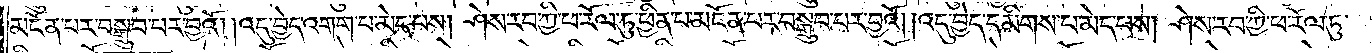མངོན་པར་བསྒྲུབ་པར་བྱའོ། །འདུ་བྱེད་འགག་པ་མེད་པས། ཤེས་རབ་ཀྱི་ཕ་རོལ་ཏུ་ཕྱིན་པ་མངོན་པར་བསྒྲུབ་པར་བྱའོ། །འདུ་བྱེད་དམིགས་པ་མེད་པས། ཤེས་རབ་ཀྱི་ཕ་རོལ་ཏུ་
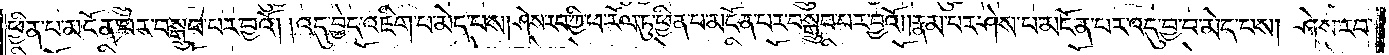ཕྱིན་པ་མངོན་པར་བསྒྲུབ་པར་བྱའོ། །འདུ་བྱེད་འཇིག་པ་མེད་པས། ཤེས་རབ་ཀྱི་ཕ་རོལ་ཏུ་ཕྱིན་པ་མངོན་པར་བསྒྲུབ་པར་བྱའོ། །རྣམ་པར་ཤེས་པ་མངོན་པར་འདུ་བྱ་བ་མེད་པས། ཤེས་རབ་
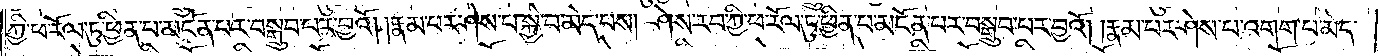ཀྱི་ཕ་རོལ་ཏུ་ཕྱིན་པ་མངོན་པར་བསྒྲུབ་པར་བྱའོ། །རྣམ་པར་ཤེས་པ་སྐྱེ་བ་མེད་པས། ཤེས་རབ་ཀྱི་ཕ་རོལ་ཏུ་ཕྱིན་པ་མངོན་པར་བསྒྲུབ་པར་བྱའོ། །རྣམ་པར་ཤེས་པ་འགག་པ་མེད་
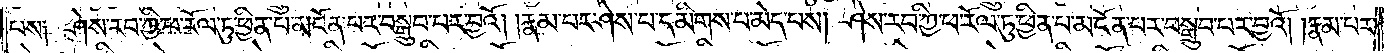པས༑ ཤེས་རབ་ཀྱི་ཕ་རོལ་ཏུ་ཕྱིན་པ་མངོན་པར་བསྒྲུབ་པར་བྱའོ། །རྣམ་པར་ཤེས་པ་དམིགས་པ་མེད་པས། ཤེས་རབ་ཀྱི་ཕ་རོལ་ཏུ་ཕྱིན་པ་མངོན་པར་བསྒྲུབ་པར་བྱའོ། །རྣམ་པར་
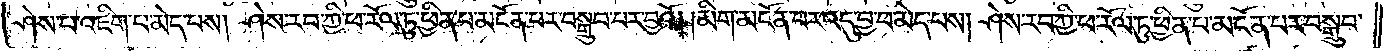ཤེས་པ་འཇིག་པ་མེད་པས། ཤེས་རབ་ཀྱི་ཕ་རོལ་ཏུ་ཕྱིན་པ་མངོན་པར་བསྒྲུབ་པར་བྱའོ། །མིག་མངོན་པར་འདུ་བྱ་བ་མེད་པས། ཤེས་རབ་ཀྱི་ཕ་རོལ་ཏུ་ཕྱིན་པ་མངོན་པར་བསྒྲུབ་
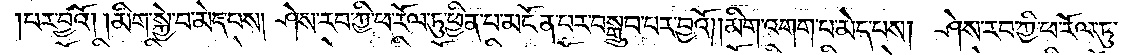པར་བྱའོ། །མིག་སྐྱེ་བ་མེད་པས། ཤེས་རབ་ཀྱི་ཕ་རོལ་ཏུ་ཕྱིན་པ་མངོན་པར་བསྒྲུབ་པར་བྱའོ། །མིག་འགག་པ་མེད་པས། ཤེས་རབ་ཀྱི་ཕ་རོལ་ཏུ་
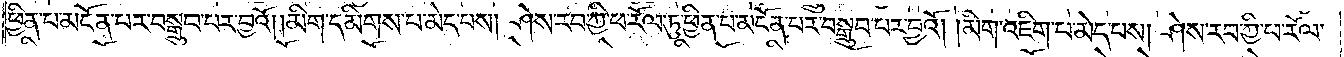ཕྱིན་པ་མངོན་པར་བསྒྲུབ་པར་བྱའོ། །མིག་དམིགས་པ་མེད་པས། ཤེས་རབ་ཀྱི་ཕ་རོལ་ཏུ་ཕྱིན་པ་མངོན་པར་བསྒྲུབ་པར་བྱའོ། །མིག་འཇིག་པ་མེད་པས། ཤེས་རབ་ཀྱི་ཕ་རོལ་
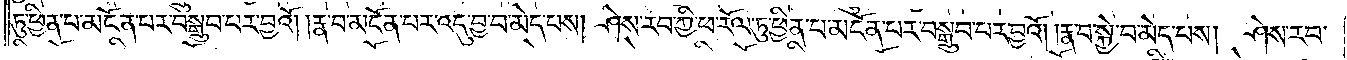ཏུ་ཕྱིན་པ་མངོན་པར་བསྒྲུབ་པར་བྱའོ། །རྣ་བ་མངོན་པར་འདུ་བྱ་བ་མེད་པས། ཤེས་རབ་ཀྱི་ཕ་རོལ་ཏུ་ཕྱིན་པ་མངོན་པར་བསྒྲུབ་པར་བྱའོ། །རྣ་བ་སྐྱེ་བ་མེད་པས། ཤེས་རབ་
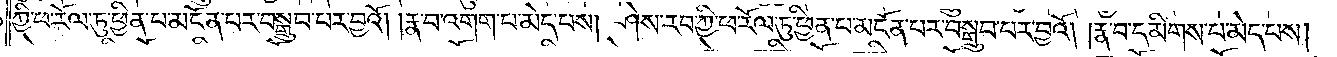ཀྱི་ཕ་རོལ་ཏུ་ཕྱིན་པ་མངོན་པར་བསྒྲུབ་པར་བྱའོ། །རྣ་བ་འགག་པ་མེད་པས། ཤེས་རབ་ཀྱི་ཕ་རོལ་ཏུ་ཕྱིན་པ་མངོན་པར་བསྒྲུབ་པར་བྱའོ། །རྣ་བ་དམིགས་པ་མེད་པས།
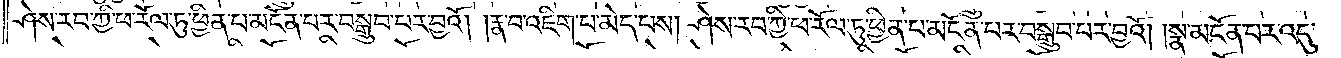ཤེས་རབ་ཀྱི་ཕ་རོལ་ཏུ་ཕྱིན་པ་མངོན་པར་བསྒྲུབ་པར་བྱའོ། །རྣ་བ་འཇིག་པ་མེད་པས། ཤེས་རབ་ཀྱི་ཕ་རོལ་ཏུ་ཕྱིན་པ་མངོན་པར་བསྒྲུབ་པར་བྱའོ། །སྣ་མངོན་པར་འདུ་
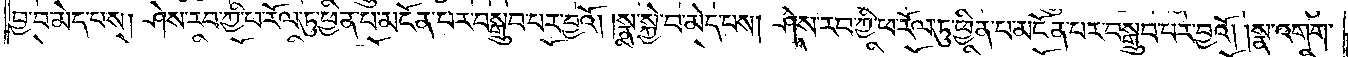བྱ་བ་མེད་པས། ཤེས་རབ་ཀྱི་ཕ་རོལ་ཏུ་ཕྱིན་པ་མངོན་པར་བསྒྲུབ་པར་བྱའོ། །སྣ་སྐྱེ་བ་མེད་པས། ཤེས་རབ་ཀྱི་ཕ་རོལ་ཏུ་ཕྱིན་པ་མངོན་པར་བསྒྲུབ་པར་བྱའོ། །སྣ་འགག་
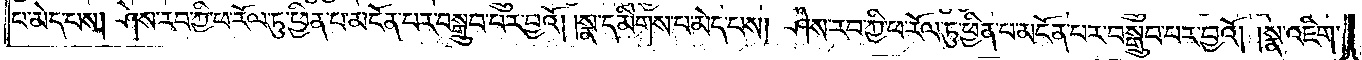པ་མེད་པས། ཤེས་རབ་ཀྱི་ཕ་རོལ་ཏུ་ཕྱིན་པ་མངོན་པར་བསྒྲུབ་པར་བྱའོ། །སྣ་དམིགས་པ་མེད་པས། ཤེས་རབ་ཀྱི་ཕ་རོལ་ཏུ་ཕྱིན་པ་མངོན་པར་བསྒྲུབ་པར་བྱའོ། །སྣ་འཇིག་
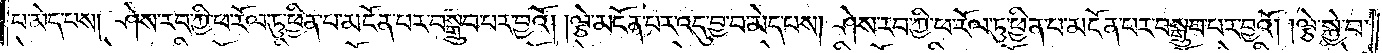པ་མེད་པས། ཤེས་རབ་ཀྱི་ཕ་རོལ་ཏུ་ཕྱིན་པ་མངོན་པར་བསྒྲུབ་པར་བྱའོ། །ལྕེ་མངོན་པར་འདུ་བྱ་བ་མེད་པས། ཤེས་རབ་ཀྱི་ཕ་རོལ་ཏུ་ཕྱིན་པ་མངོན་པར་བསྒྲུབ་པར་བྱའོ། །ལྕེ་སྐྱེ་བ་
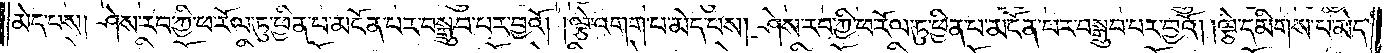མེད་པས། ཤེས་རབ་ཀྱི་ཕ་རོལ་ཏུ་ཕྱིན་པ་མངོན་པར་བསྒྲུབ་བར་བྱའོ། །ལྕེ་འགག་པ་མེད་པས། ཤེས་རབ་ཀྱི་ཕ་རོལ་ཏུ་ཕྱིན་པ་མངོན་པར་བསྒྲུབ་པར་བྱའོ། །ལྕེ་དམིགས་པ་མེད་
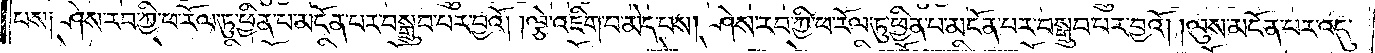པས༑ ཤེས་རབ་ཀྱི་ཕ་རོལ་ཏུ་ཕྱིན་པ་མངོན་པར་བསྒྲུབ་པར་བྱའོ། །ལྕེ་འཇིག་པ་མེད་པས། ཤེས་རབ་ཀྱི་ཕ་རོལ་ཏུ་ཕྱིན་པ་མངོན་པར་བསྒྲུབ་པར་བྱའོ། །ལུས་མངོན་པར་འདུ་
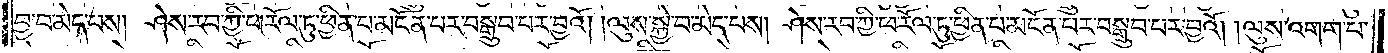བྱ་བ་མེད་པས། ཤེས་རབ་ཀྱི་ཕ་རོལ་ཏུ་ཕྱིན་པ་མངོན་པར་བསྒྲུབ་པར་བྱའོ། །ལུས་སྐྱེ་བ་མེད་པས། ཤེས་རབ་ཀྱི་ཕ་རོལ་ཏུ་ཕྱིན་པ་མངོན་པར་བསྒྲུབ་པར་བྱའོ། །ལུས་འགག་པ་
